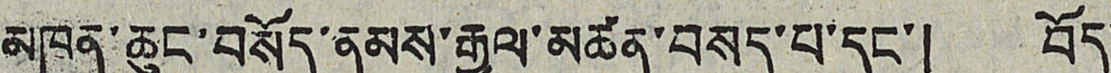མཁན་ཆུང་བསོད་ནམས་རྒྱལ་མཚན་བསད་པ་དང་། བོད་
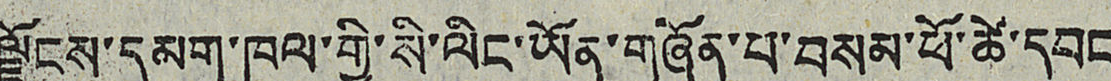ལྗོངས་དམག་ཁུལ་གྱི་སི་ལིང་ཡོན་གཞོན་པ་བསམ་ཕོ་ཚེ་དབང
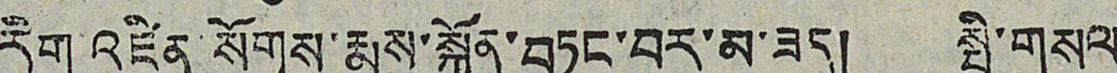རིག་འཛིན་སོགས་རྨས་སྐྱོན་བཏང་བར་མ་ཟད། སྤྱི་གསལ
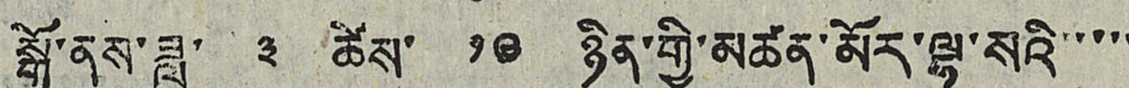སྒོ་ནས་ཟླ་ ༣ ཚེས་ ༡༩ ཉིན་གྱི་མཚན་མོར་ལྷ་སའི་་་་་
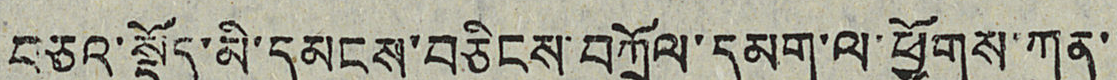བཅའ་སྡོད་མི་དམངས་བཅིངས་བཀྲོལ་དམག་ལ་ཕྱོགས་ཀུན་་
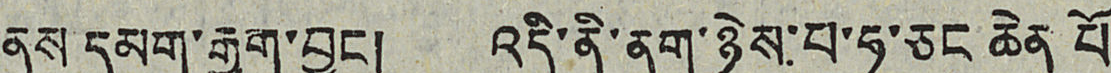ནས་དམག་རྒྱག་བྱུང། འདི་ནི་ནག་ཉེས་པ་ཧ་ཅང ཆེན པོ་
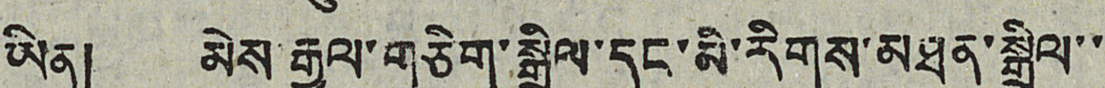ཡིན། མེས་རྒྱལ་གཅིག་སྒྲིལ་དང་མི་རིགས་མཐུན་སྒྲིལ་་་
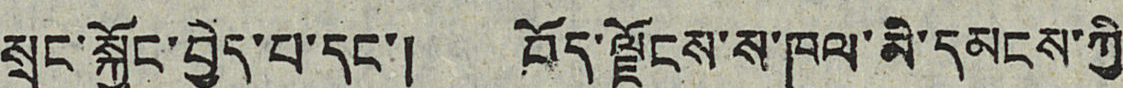སྲུང་སྐྱོང་བྱེད་པ་དང་། བོད་ལྗོངས་ས་ཁུལ་མི་དམངས་ཀྱི
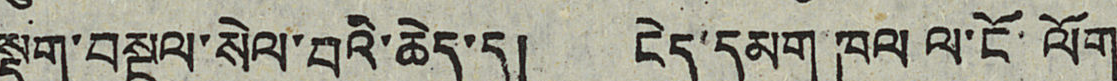སྡུག་བསྔལ་སེལ་བའི་ཆེད་དུ། ངེད་དམག ཁུལ ལ་ངོ་ལོག
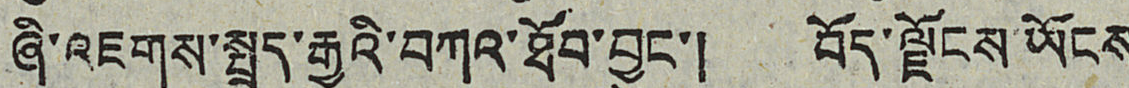ཞི་འཇགས་སྤྲད་རྒྱུའི་བཀའ་ཐོབ་བྱུང་། བོད་ལྗོངས་ཡོངས
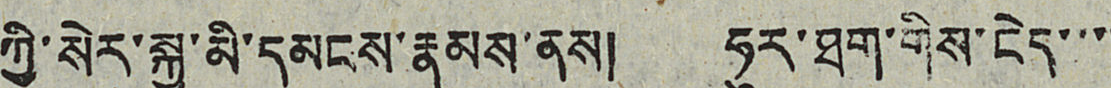ཀྱི་སེར་སྐྱ་མི་དམངས་རྣམས་ནས། ཧུར་ཐག་གིས་ངེད་་་་
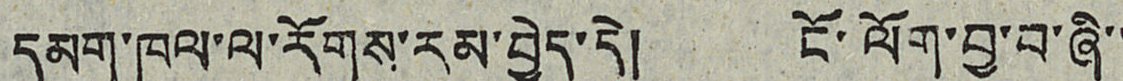དམག་ཁུལ་ལ་རོགས་རམ་བྱེད་དེ། ངོ་ལོག་བྱ་བ་ཞི་་
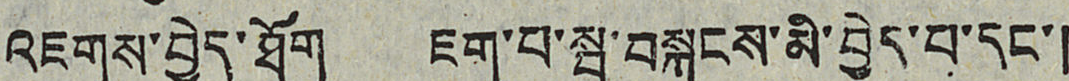འཇགས་བྱེད་ཐོག ཇག་པ་སྦ་བསྐུངས་མི་བྱེད་པ་དང་།
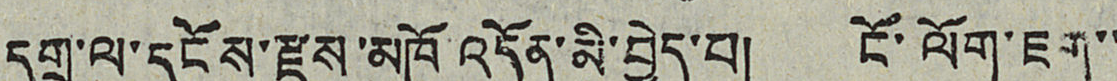དགྲ་ལ་དངོས་རྫས་མཁོ འདོན་མི་བྱེད་བ། ངོ་ལོག་ཇག་་
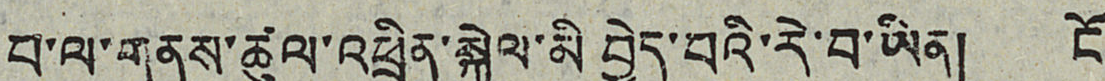བ་ལ་གནས་ཚུལ་འཕྲིན་སྐྱེལ་མི བྱེད་བའི་རེ་བ་ཡིན། ངོ་
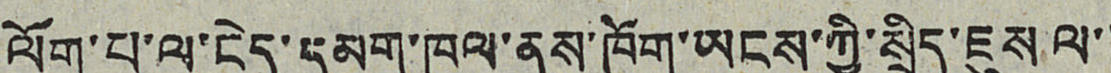ལོག་པ་ལ་ངེད་དམག་ཁུལ་ནས་ཁོག་ཡངས་ཀྱི་སྲིད་ཇུས ལ་་
